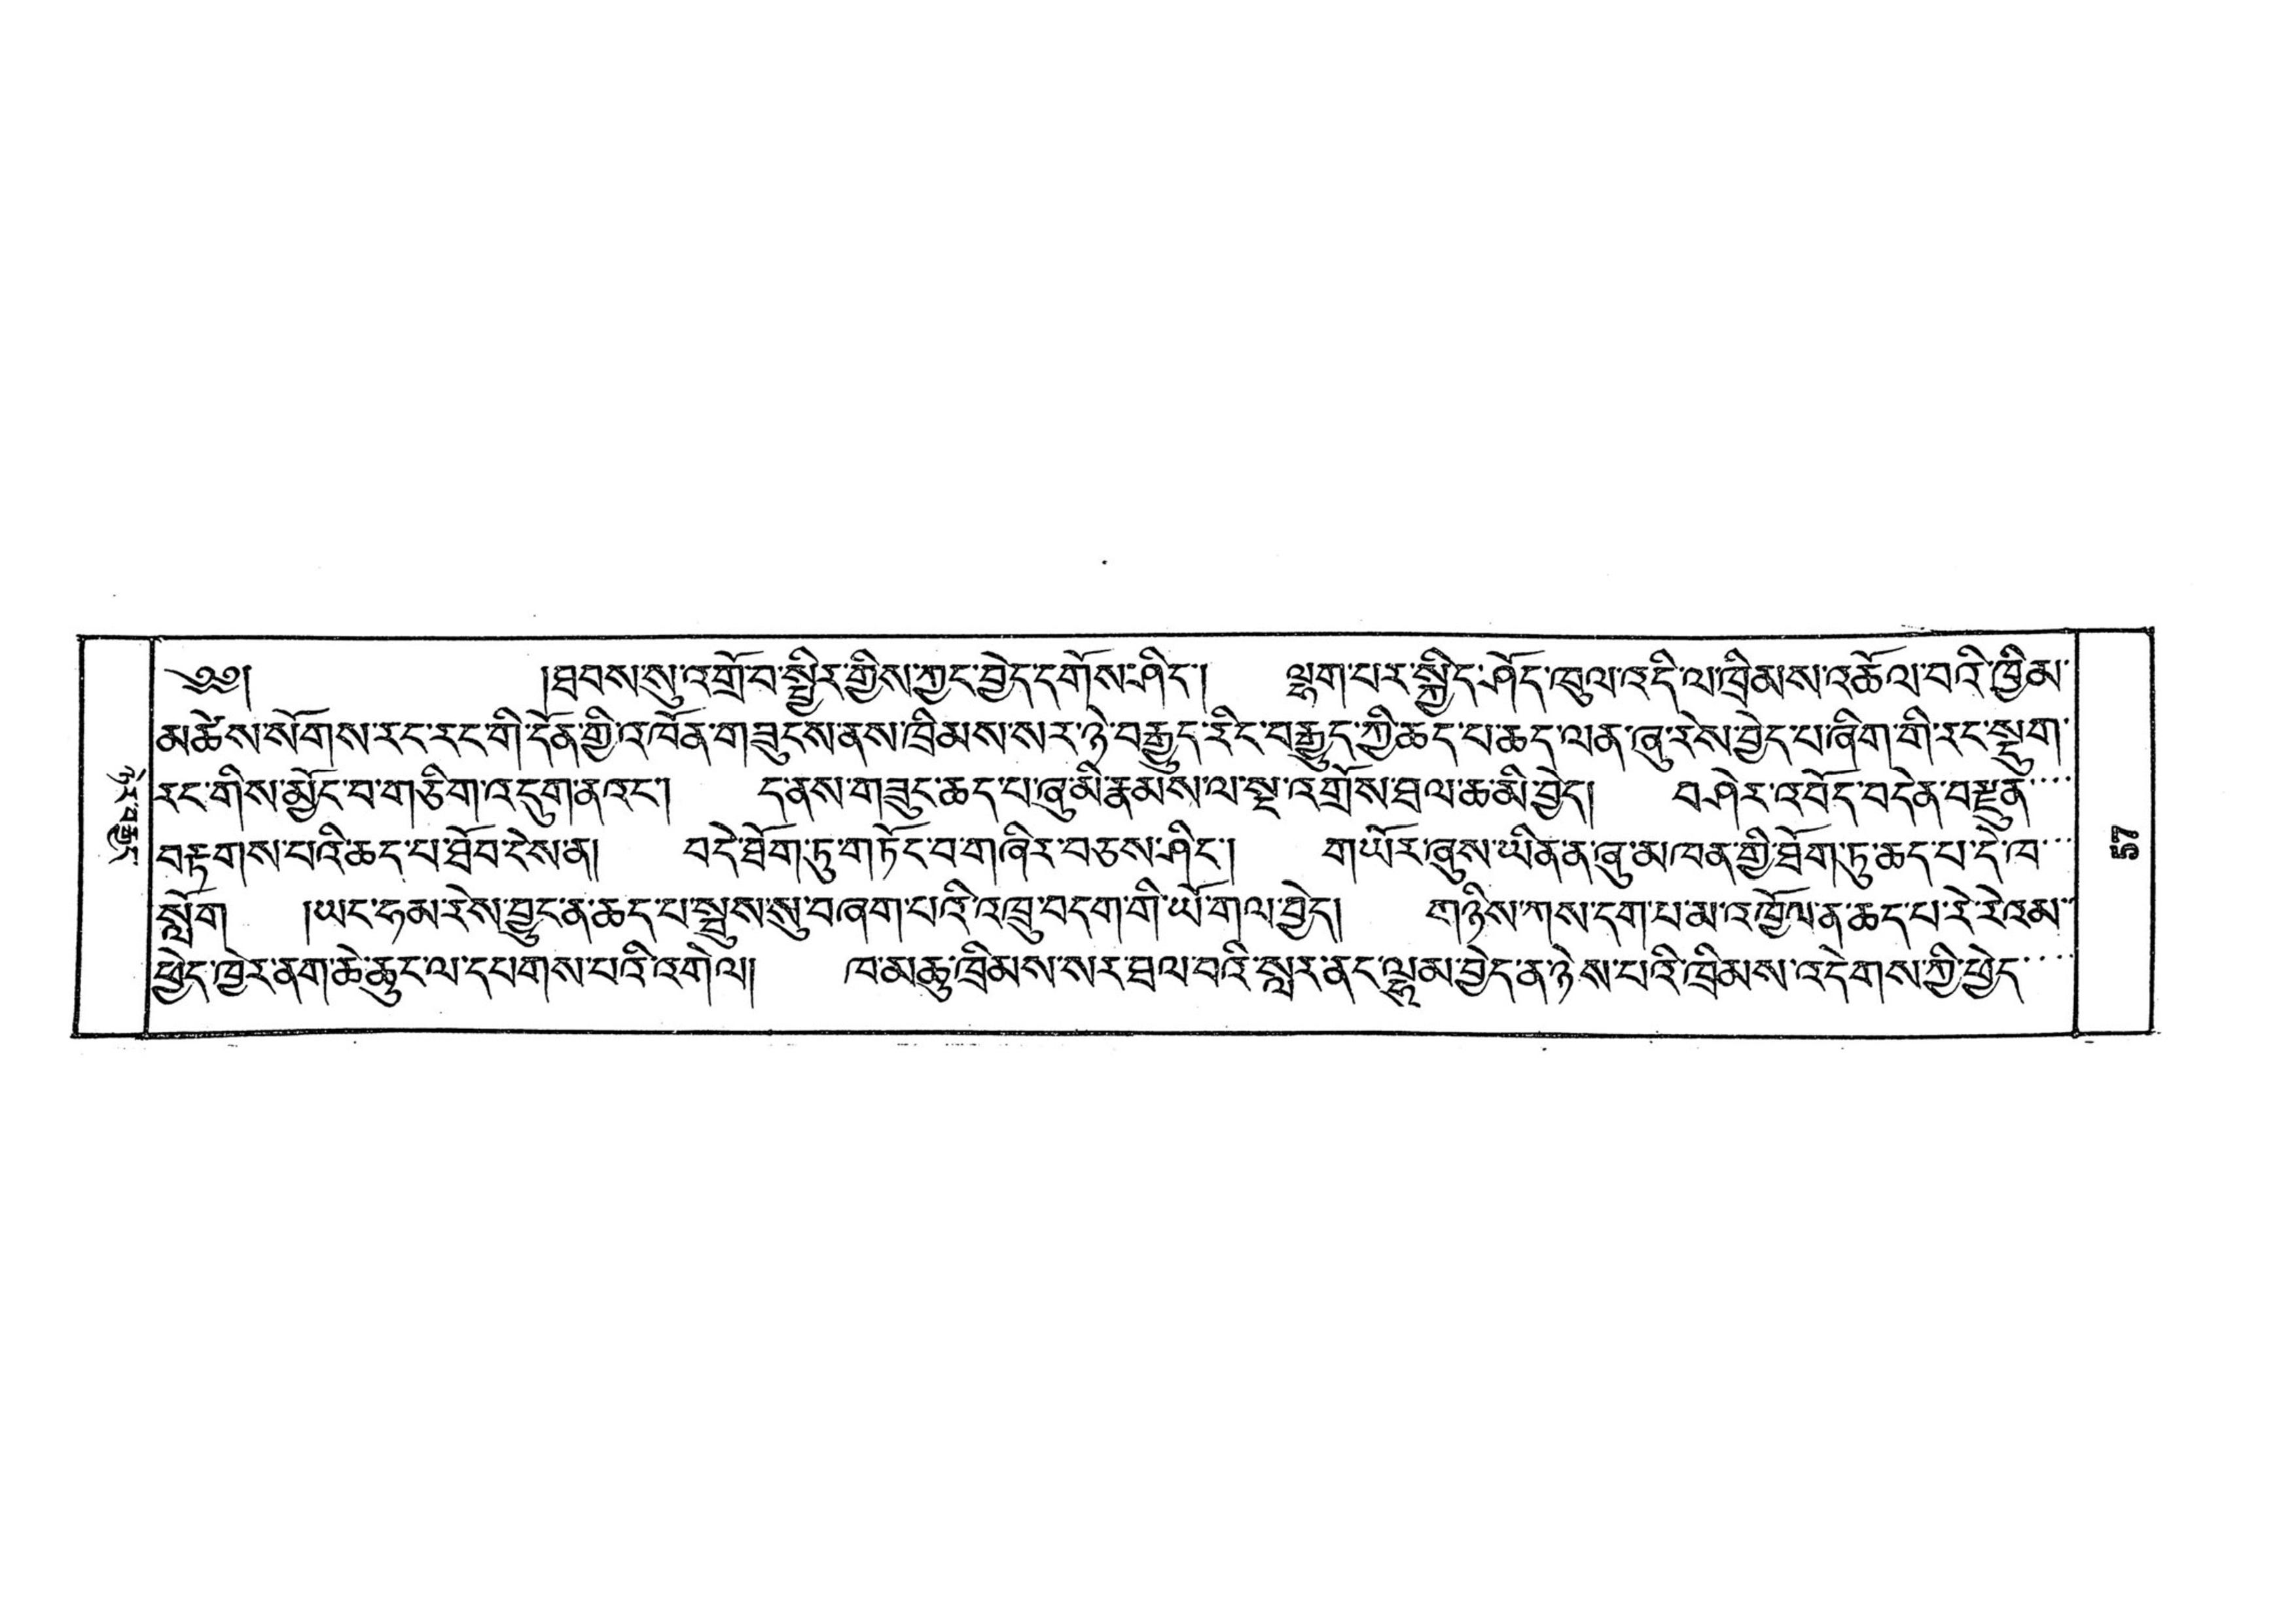ཉེར་བརྒྱད་
༄༅། །ཐབས་སུ་འགྲོ་བ་སྤྱིར་གྱིས་ཀྱང་བྱེད་དགོས་ཤིང་། ལྷག་པར་སྐྱིད་ཤོད་ཁུལ་འདི་ལ་ཁྲིམས་འཆོལ་བའི་ཁྱིམ་
མཚེས་སོགས་རང་རང་གི་དོན་གྱི་འཁོན་གཟུངས་ནས་ཁྲིམས་སར་ཉེ་བརྒྱུད་རིང་བརྒྱུད་ཀྱི་ཆད་པ་ཆད་ལན་ཞུ་རེས་བྱེད་པ་ཞིག་གི་རང་སྡུག་
རང་གིས་མྱོང་བ་གཅིག་འདུག་ནའང་། ད་ནས་གཟུང་ཆད་པ་ཞུ་མི་རྣམས་ལ་སྔ་འགྲོས་ཐལ་ཆ་མི་བྱེད། བཤེར་འབོད་བདེན་བརྫུན་་་་
བརྟགས་པའི་ཆད་པ་ཐོབ་ངེས་ན། བདེ་ཐོག་ཏུ་གཏོང་བ་གཞིར་བཅས་ཤིང་། གཡོར་ཞུས་ཡིན་ན་ཞུ་མཁན་གྱི་ཐོག་ཏུ་ཆད་པ་དེ་ཁ་་་
སློག །ཡང་ཧམ་རེས་བྱུང་ན་ཆད་པ་སྦུས་སུ་བཞག་པའི་འཁྲུ་བདག་གི་ཡོ་གལ་བྱེད། གཉིས་ཀས་དག་པ་མ་འཁྱོལ་ན་ཆད་པ་རེ་རེའམ་་
ཕྱེད་ཁྱེར་ནག་ཆེ་ཆུང་ལ་དཔགས་པའི་འགེལ། ཁ་མཆུ་ཁྲིམས་སར་ཐལ་བའི་སླར་ནང་ལྷུམ་བྱེད་ན་ཉེས་པའི་ཁྲིམས་འདེགས་ཀྱི་ཕྱེད་་་་
